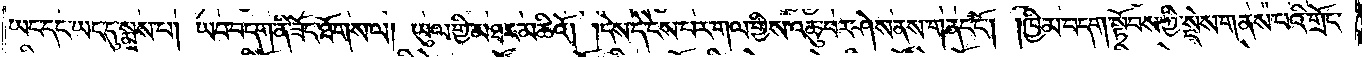ཡང་དང་ཡང་དུ་སྨྲས་པ། ཡབ་བདག་ནི་ཟོང་ཐོགས་ལ། ཡུལ་གྱི་མཐར་མཆིའོ། །དེས་དེ་ངེས་པར་གལ་གྱིས་འཆུ་བར་ཤེས་ནས་གནང་ངོ༌། །ཁྱིམ་བདག་སྟོབས་ཀྱི་སྡེས་གནས་པའི་གྲོང་
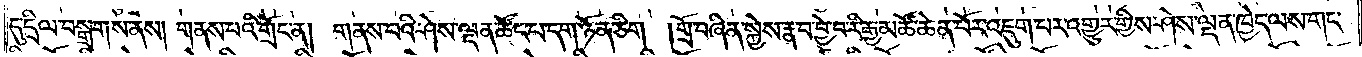དུ་དྲིལ་བསྒྲགས་ནས། གནས་པའི་གྲོང་ན། གནས་པའི་ཤེས་ལྡན་ཚོད་པ་དག་ཉོན་ཅིག །གྲོ་བཞིན་སྐྱེས་རྣ་བ་བྱེ་བ་རི་རྒྱ་མཚོ་ཆེན་པོར་འཇུག་པར་འགྱུར་གྱིས་ཤེས་ལྡན་ཁྱེད་ལས་གང་
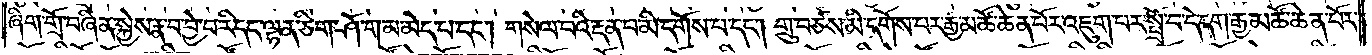ཞིག་གྲོ་བཞིན་སྐྱེས་རྣ་བ་བྱེ་བ་རི་དང་ལྷན་ཅིག་ཤོ་གམ་མེད་པ་དང༌། གསེལ་བའི་རྔན་པ་མི་དགོས་པ་དང༌། གྲུ་བཙས་མི་དགོས་པར་རྒྱ་མཚོ་ཆེན་པོར་འཇུག་པར་སྤྲོ་བ་དེ་དག་རྒྱ་མཚོ་ཆེན་པོར་
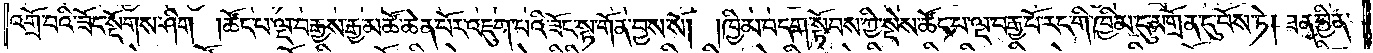འགྲོ་བའི་ཟོང་སྔོགས་ཤིག །ཚོང་པ་ལྔ་བརྒྱས་རྒྱ་མཚོ་ཆེན་པོར་འཇུག་པའི་ཟོང་སྟ་གོན་བྱས་སོ། །ཁྱིམ་བདག་སྟོབས་ཀྱི་སྡེས་ཚོང་པ་ལྔ་བརྒྱ་པོ་རང་གི་ཁྱིམ་དུ་མགྲོན་དུ་བོས་ཏེ། ཟན་བྱིན་
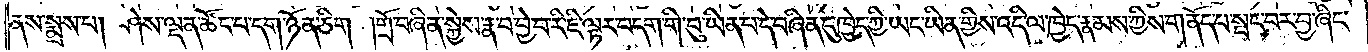ནས་སྨྲས་པ། ཤེས་ལྡན་ཚོང་པ་དག་ཉོན་ཅིག །གྲོ་བཞིན་སྐྱེས་རྣ་བ་བྱེ་བ་རི་ཇི་ལྟར་བདག་གི་བུ་ཡིན་པ་དེ་བཞིན་དུ་ཁྱེད་ཀྱི་ཡང་ཡིན་གྱིས་འདི་ལ་ཁྱེད་རྣམས་ཀྱིས་གནོད་པ་སྤང་བར་བྱ་ཞིང་
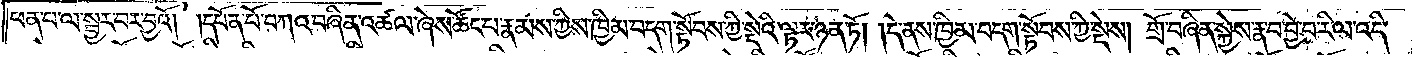ཕན་པ་ལ་སྦྱར་བར་བྱའོ། །དཔོན་པོ་བཀའ་བཞིན་འཚལ་ཞེས་ཚོང་པ་རྣམས་ཀྱིས་ཁྱིམ་བདག་སྟོབས་ཀྱི་སྡེའི་ལྟར་ཉན་ཏོ། །དེ་ནས་ཁྱིམ་བདག་སྟོབས་ཀྱི་སྡེས། གྲོ་བཞིན་སྐྱེས་རྣ་བ་བྱེ་བ་རི་ལ་འདི་
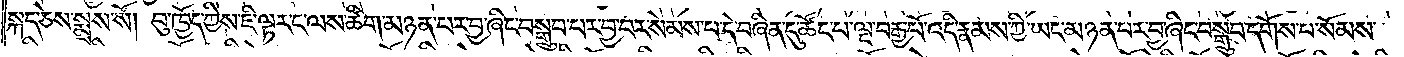སྐད་ཅེས་སྨྲས་སོ། བུ་ཁྱོད་ཀྱིས་ཇི་ལྟར་ང་ལས་ཚིག་མཉན་པར་བྱ་ཞིང་བསྒྲུབ་པར་བྱ་བར་སེམས་པ་དེ་བཞིན་དུ་ཚོང་པ་ལྔ་བརྒྱ་པོ་འདི་རྣམས་ཀྱི་ཡང་མཉན་པར་བྱ་ཞིང་བསྒྲུབ་དགོས་པ་སོམས་
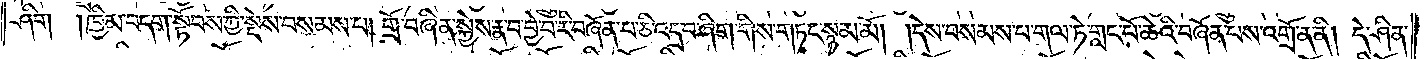ཤིག །ཁྱིམ་བདག་སྟོབས་ཀྱི་སྡེས་བསམས་པ། གྲོ་བཞིན་སྐྱེས་རྣ་བ་བྱེ་བ་རི་བཞོན་པ་ཅི་འདྲ་བ་ཞིག་གིས་གཏང་སྙམ་མོ། །དེས་བསམས་པ་གལ་ཏེ་གླང་པོ་ཆེའི་བཞོན་པས་འགྲོ་ན་ནི། དེ་ཤིན་
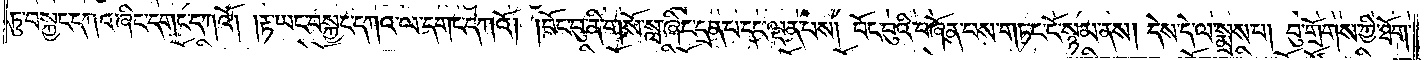ཏུ་བསྐྱང་དགའ་ཞིང་དགང་དཀའོ། །རྟ་ཡང་བསྐྱང་དཀའ་ལ་དགང་དཀའོ། །བོང་བུ་ནི་གསོ་སླ་ཞིང་དྲན་པ་དང་ལྡན་པས། བོང་བུའི་བཞོན་པས་གཏང་ངོ་སྙམ་ནས། དེས་དེ་ལ་སྨྲས་པ། བུ་གྲོགས་ཀྱི་ཐོག་
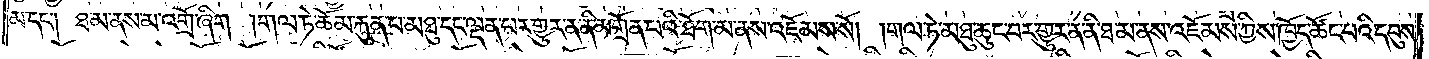མ་དང༌། ཐ་མ་ནས་མ་འགྲོ་ཞིག །གལ་ཏེ་ཆོམ་རྐུན་པ་མཐུ་དང་ལྡན་པར་གྱུར་ན་ནི་མགྲོན་པའི་ཐོག་མ་ནས་འཇོམས་སོ། །གལ་ཏེ་མཐུ་ཆུང་བར་གྱུར་ན་ནི་ཐ་མ་ནས་འཇོམས་ཀྱིས་ཁྱོད་ཚོང་པའི་དབུས་
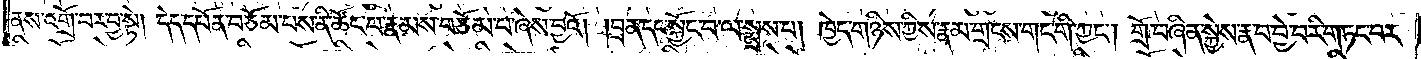ནས་འགྲོ་བར་བྱ་སྟེ། དེད་དཔོན་བཅོམ་པས་ནི་ཚོང་པ་རྣམས་བཅོམ་པ་ཞེས་བྱའོ། །བྲན་དང་སྐྱོང་བ་ལ་སྨྲས་པ། ཁྱེད་གཉིས་ཀྱིས་རྣམ་གྲངས་གང་གི་ཀྱང༌། གྲོ་བཞིན་སྐྱེས་རྣ་བ་བྱེ་བ་རི་གཏང་བར་
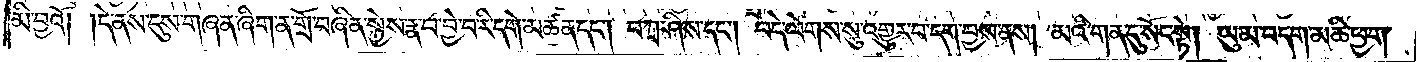མི་བྱའོ། །དེ་ནས་དུས་གཞན་ཞིག་ན་གྲོ་བཞིན་སྐྱེས་རྣ་བ་བྱེ་བ་རི་དགེ་མཚན་དང༌། བཀྲ་ཤིས་དང༌། བདེ་ལེགས་སུ་འགྱུར་བ་དག་བྱས་ནས། མའི་གན་དུ་སོང་སྟེ། ཡུམ་བདག་མཆི་ཕྱག་
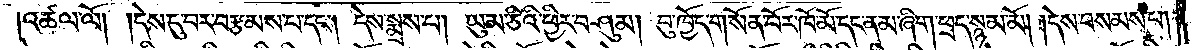འཚལ་ལོ། །དེས་དུ་བར་བརྩམས་པ་དང༌། དེས་སྨྲས་པ། ཡུམ་ཅིའི་ཕྱིར་བཤུམ། བུ་ཁྱོད་གསོན་པོར་ཁོ་མོ་དང་ནམ་ཞིག་ཕྲད་སྙམ་མོ། །དེས་བསམས་པ།
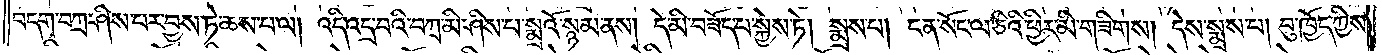བདག་བཀྲ་ཤེས་པར་བྱས་ཏེ་ཆས་པ་ལ། འདི་འདྲ་བའི་བཀྲ་མི་ཤིས་པ་སྨྲའོ་སྙམ་ནས། དེ་མི་བཟོད་པ་སྐྱེས་ཏེ། སྨྲས་པ། ངན་སོང་ལ་ཅིའི་ཕྱིར་མི་གཟིགས། དེས་སྨྲས་པ། བུ་ཁྱོད་ཀྱིས་
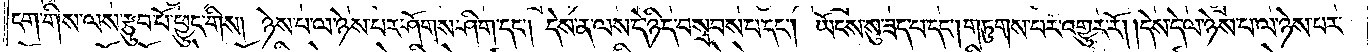དག་གིས་ལས་རྩུབ་པོ་ཕྱུང་གིས། ཉེས་པ་ལ་ཉེས་པར་ཤོགས་ཤིག་དང༌། དེས་ན་ལས་དེ་ཉིད་བསྲབས་པ་དང༌། ཡོངས་སུ་ཟད་པ་དང༌། གཏུགས་པར་འགྱུར་རོ། །དེས་དེ་ལ་ཉེས་པ་ལ་ཉེས་པར་
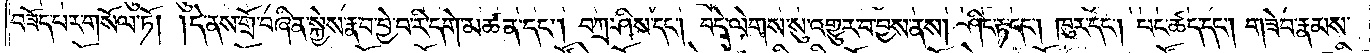བཟོད་པར་གསོལ་ཏོ། །དེ་ནས་གྲོ་བཞིན་སྐྱེས་རྣ་བ་བྱེ་བ་རི་དགེ་མཚན་དང༌། བཀྲ་ཤིས་དང༌། བདེ་ལེགས་སུ་འགྱུར་བ་བྱས་ནས། ཤིང་རྟ་དང༌། ཁུར་དང༌། པང་ཚད་དང༌། གཟེབ་རྣམས་
